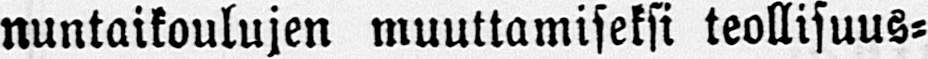nuntaikoulujen muuttamiseksi teollisuus-
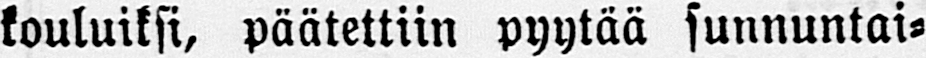kouluiksi, päätettiin pyytää sunnuntai-
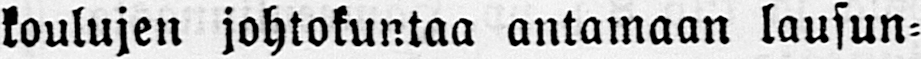koulujen johtokuntaa antamaan lausun-
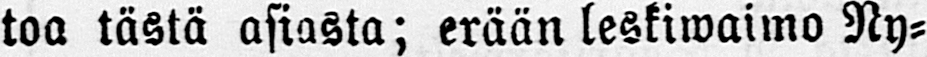toa tästä asiasta; erään leskiwaimo Ny-
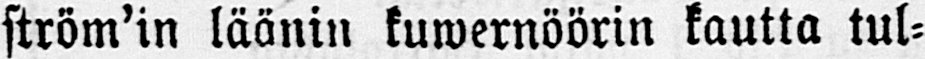ström'in läänin kuwernöörin kautta tul-
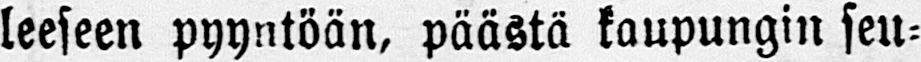leeseen pyyntöön, päästä kaupungin seu-
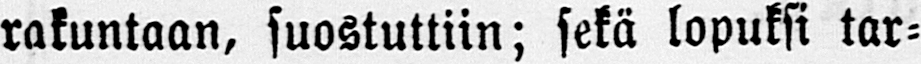rakuntaan, suostuttiin; sekä lopuksi tar-
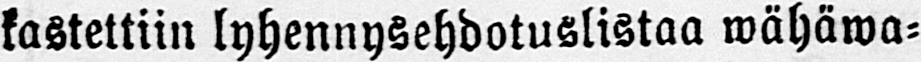kastettiin lyhennysehdotuslistaa wähäwa-
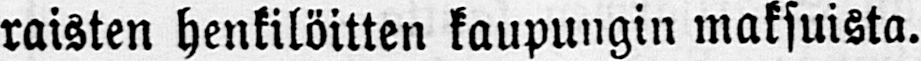raisten henkilöitten kaupungin maksuista.
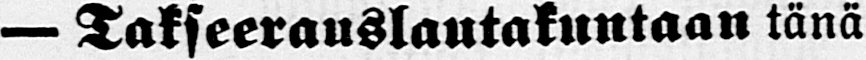— Takseerauslautakuntaan tänä
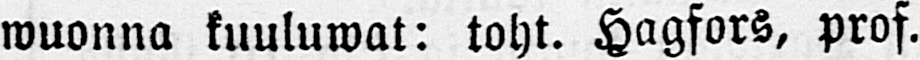wuonna kuuluwat: toht. Hagfors, prof.
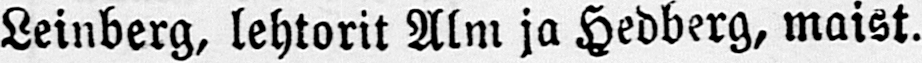Leinberg, lehtorit Alm ja Hedberg, maist.
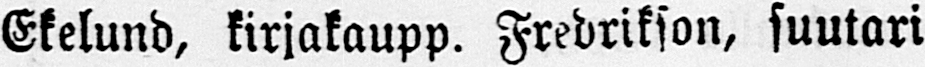Ekelund, kirjakaupp. Fredrikson, suutari
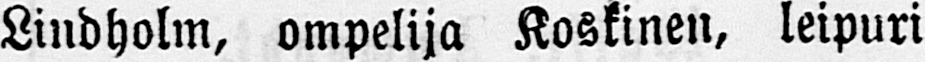Lindholm, ompelija Koskinen, leipuri
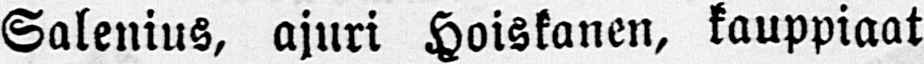Salenius, ajuri Hoiskanen, kauppiaat
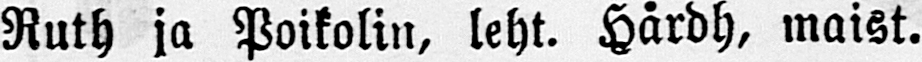Ruth ja Poikolin, leht. Hårdh, maist.
